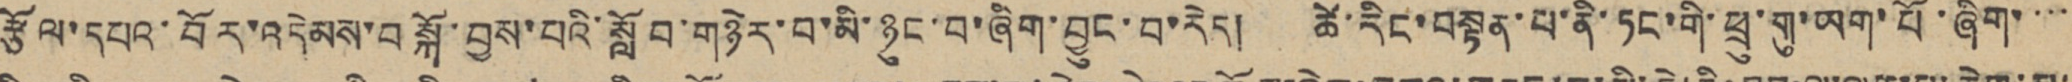རྩོལ་དཔའ་བོར་འདེམས་བསྐོ་བྱས་པའི་སློབ་གཉེར་བ་མི་ཉུང་བ་ཞིག་བྱུང་བ་རེད། ཚེ་རིང་བསྟན་པ་ནི་ཏང་གི་ཕྲུ་གུ་ཡག་པོ་ཞིག་་་་
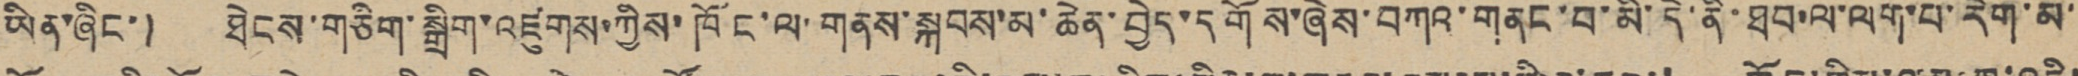ཡིན་ཞིང་། ཐེངས་གཅིག་སྒྲིག་འཛུགས་ཀྱིས་ཁོང་ལ་གནས་སྐབས་མ་ཆེན་བྱེད་དགོས་ཞེས་བཀའ་གནང་བ་མི་དེ་ནི་ཐབ་ལ་ལག་པ་རེག་མ་
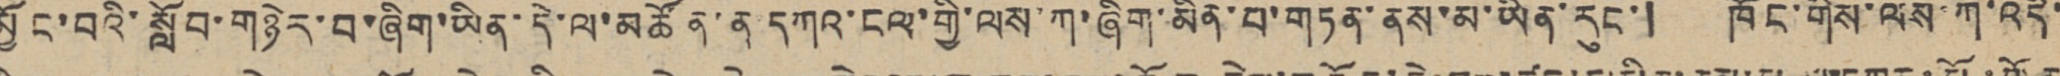མྱོང་བའི་སློབ་གཉེར་བ་ཞིག་ཡིན་དེ་ལ་མཚོན་ན དཀའ་ངལ་གྱི་ལས་ཀ་ཞིག་མིན་པ་གཏན་ནས་མ་ཡིན་རུང་། ཁོང་གིས་ལས་ཀ་འདི་
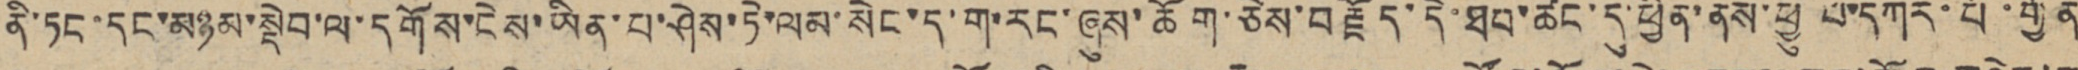ནི་ཏང་དང་མཉམ་སྡེབ་ལ་དགོས་ངེས་ཡིན་པ་ཤེས་ཏེ་ལམ་སེང་ད་ག་རང་ཞུས་ཆོག་ཅེས་བརྗོད་དེ་ཐབ་ཚང་དུ་ཕྱིན་ནས་ཕྱུ པ་དཀར་པོ་གྱོན
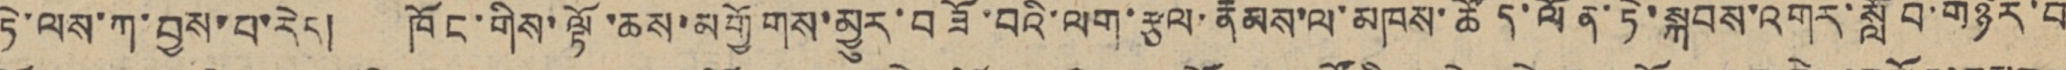ཏེ་ལས་ཀ་བྱས་པ་རེད། ཁོང་གིས་ལྟོ་ཆས་མགྱོགས་མྱུར་བཟོ་བའི་ལག་རྩལ་རྣམས་ལ་མཁས་ཚོད་ལོན་ཏེ་སྐབས་འགར་སློབ་གཉེར་བ
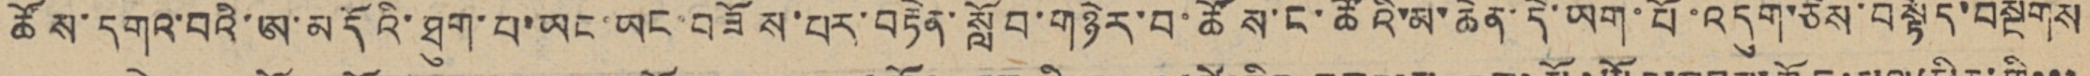ཚོས་དགའ་བའི་ཨ་མདོའི་ཐུག་པ་ཡང་ཡང་བཟོས་པར་བཏེན་སློབ་གཉེར་བ་ཚོས་ང་ཚོའི་མ་ཆེན་དེ་ཡག་པོ་འདུག་ཅེས་བསྟོད་བསྔགས
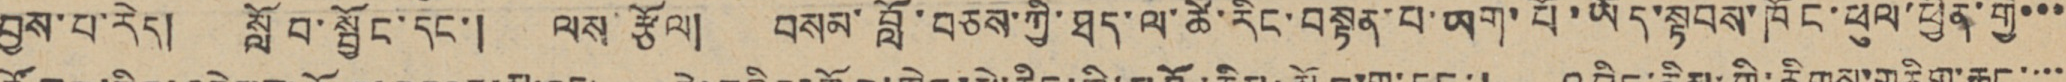བྱས་པ་རེད། སློབ་སྦྱོང་དང་། ལས་རྩོལ། བསམ་བློ་བཅས་ཀྱི་ཐད་ལ་ཚེ་རིང་བསྟན་པ་ཡག་པོ་ཡོད་སྟབས་ཁོང་ཕུལ་ཕྱིན་གྱི་་་
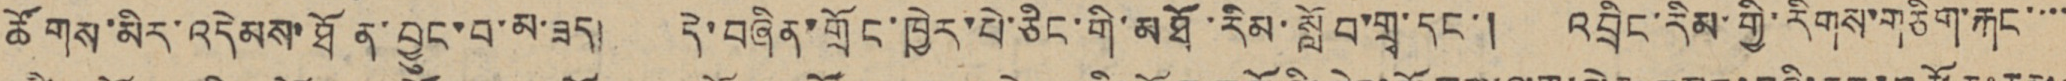ཚོགས་མིར་འདེམས་ཐོན་བྱུང་བ་མ་ཟད། དེ་བཞིན་གྲོང་ཁྱེར་པེ་ཅིང་གི་མཐོ་རིམ་སློབ་གྲྭ་དང་། འབྲིང་རིམ་གྱི་རིགས་གཅིག་རྐང་་་་
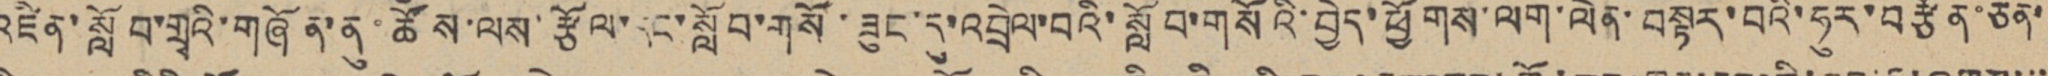འཛིན་སློབ་གྲྭའི་གཞོན་ནུ་ཚོས་ལས་རྩོལ་དང་སློབ་གསོ་ཟུང་དུ་འབྲེལ་བའི་སློབ་གསོའི་བྱེད་ཕྱོགས་ལག་ལེན་བསྟར་བའི་ཧུར་བརྩོན་ཅན་
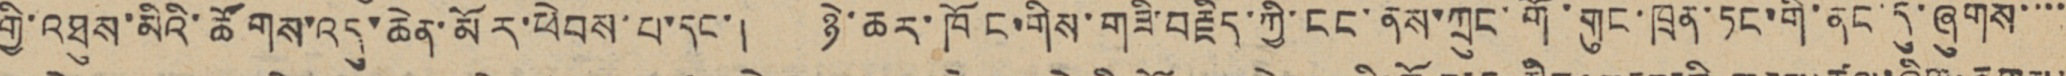གྱི་འཐུས་མིའི་ཚོགས་འདུ་ཆེན་མོར་ཕེབས་པ་དང་། ཉེ་ཆར་ཁོང་གིས་གཟི་བརྗིད་ཀྱི་ངང་ནས་ཀྲུང་གོ་གུང་ཁྲན་ཏང་གི་ནང་དུ་ཞུགས་་་་
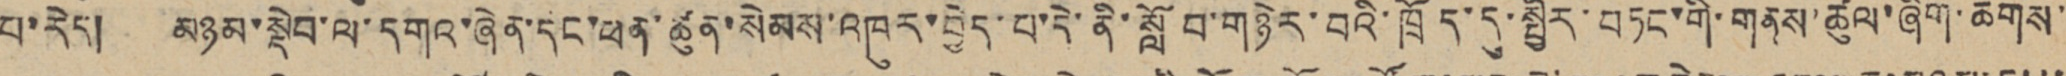པ་རེད། མཉམ་སྡེབ་ལ་དགའ་ཞེན་དང་ཕན་ཚུན་སེམས་འཁུར་བྱེད་པ་དེ་ནི་སློབ་གཉེར་བའི་ཁྲོད་དུ་སྤྱིར་བཏང་གི་གནས་ཚུལ་ཞིག་ཆགས་
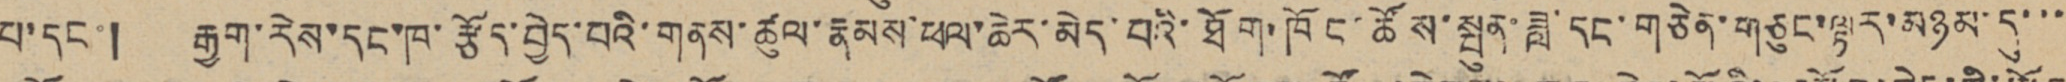པ་དང་། རྒྱག་རེས་དང་ཁ་རྩོད་བྱེད་པའི་གནས་ཚུལ་རྣམས་ཕལ་ཆེར་མེད་པའི་ཐོག་ཁོང་ཚོས་སྤུན་ཟླ་དང་གཅེན་གཅུང་ལྟར་མཉམ་དུ་་་
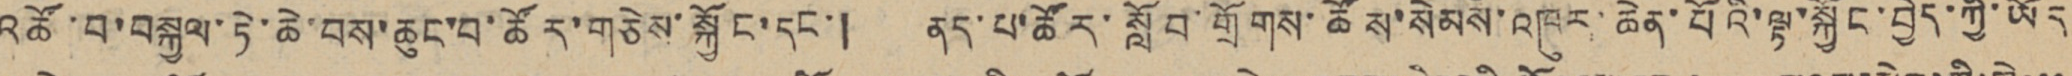འཚོ་བ་བསྐྱལ་ཏེ་ཆེ་བས་ཆུང་བ་ཚོར་གཅེས་སྐྱོང་དང་། ནད་པ་ཚོར་སློབ་གྲོགས་ཚོས་སེམས་འཁུར་ཆེན་པོའི་ལྟ་སྐྱོང་བྱེད་ཀྱི་ཡོད
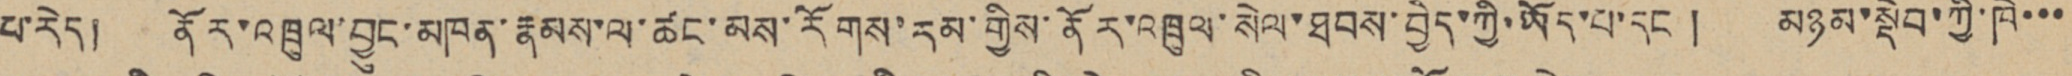པ་རེད། ནོར་འཁྲུལ་བྱུང་མཁན་རྣམས་ལ་ཚང་མས་རོགས་རམ་གྱིས་ནོར་འཁྲུལ་སེལ་ཐབས་བྱེད་ཀྱི་ཡོད་པ་དང ། མཉམ་སྡེབ་ཀྱི་ཁེ་་་
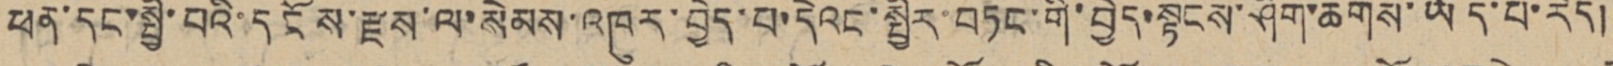ཕན་དང་སྤྱི་བའི་དངོས་རྫས་ལ་སེམས་འཁུར་བྱེད་པ་དེའང་སྤྱིར་བཏང་གི་བྱེད་སྟངས་ཤིག་ཆགས་ཡོད་པ་རེད།
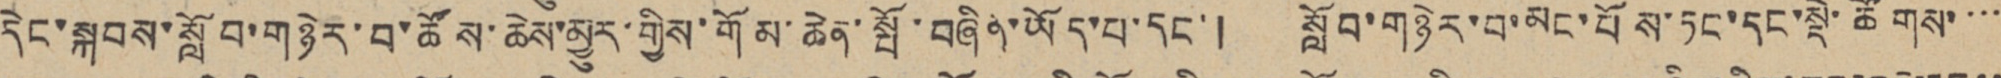དེང་སྐབས་སློབ་གཉེར་བ་ཚོས་ཆེས་མྱུར་གྱིས་གོམ་ཆེན་སྤོ་བཞིན་ཡོད་པ་དང་། སློབ་གཉེར་བ་མང་པོས་ཏང་དང་སྡེ་ཚོགས་་་་
